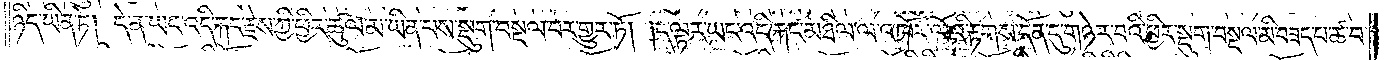ཉིད་ཡིན་ཏེ། དེ་ན་ཡང་འདི་རྐང་རྗེས་ཀྱི་ཕྱིར་ཚུལ་མ་ཡིན་པས་སྡུག་བསྔལ་བར་གྱུར་ཏོ། །ད་ལྟར་ཡང་འདི་རྐང་མཐིལ་ལ་འཁོར་ལོའི་རྟགས་དོན་དུ་གཉེར་བའི་ཕྱིར་སྡུག་བསྔལ་མི་བཟད་པ་ཚ་བ་
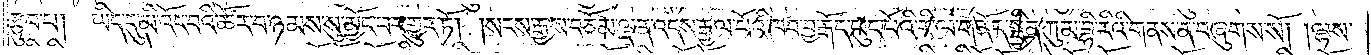རྩུབ་པ།   ཡིད་དུ་མི་འོང་བའི་ཚོར་བ་ཉམས་སུ་མྱོང་བར་གྱུར་ཏོ། །སངས་རྒྱས་བཅོམ་ལྡན་འདས་རྒྱལ་པོའི་ཁབ་བྱ་རྒོད་ཕུང་པོའི་རི་ལ་གནོད་སྦྱིན་ཀུམ་བྷི་རིའི་གནས་ན་བཞུགས་སོ། །ལྷས་
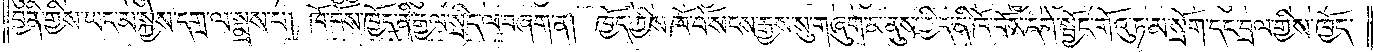བྱིན་གྱིས་ཡང་མ་སྐྱེས་དགྲ་ལ་སྨྲས་པ། ཁོ་བོས་ཁྱོད་ནི་རྒྱལ་སྲིད་ལ་བཞག་ན། ཁྱོད་ཀྱིས་ཁོ་བོ་སངས་རྒྱས་སུ་གཞུག་མ་ནུས་ཀྱི་ད་ནི་ཁོ་བོས་དགེ་སྦྱོང་གོའུ་ཏ་མ་སྲོག་དང་བྲལ་གྱིས་ཁྱོད་
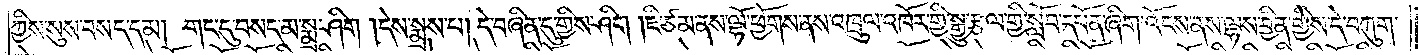ཀྱིས་སུས་བསད་དམ། གང་དུ་བསད་མ་སྨྲ་ཤིག །དེས་སྨྲས་པ། དེ་བཞིན་དུ་གྱིས་ཤིག །ཇི་ཙམ་ནས་ལྷོ་ཕྱོགས་ནས་འཁྲུལ་འཁོར་གྱི་སྒྱུ་རྩལ་གྱི་སློབ་དཔོན་ཞིག་འོངས་ནས་ལྷས་བྱིན་གྱིས་དེ་བཀུག་
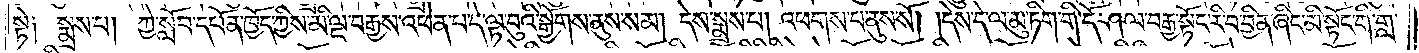སྟེ༑ སྨྲས་པ། ཀྱེ་སློབ་དཔོན་ཁྱོད་ཀྱིས་མི་ལྔ་བརྒྱས་འཕེན་པ་དེ་ལྟ་བུའི་སྒྱོགས་ནུས་སམ། དེས་སྨྲས་པ། འཕགས་པ་ནུས་སོ། །དེས་དེ་ལ་མུ་ཏིག་གི་དོ་ཤལ་བརྒྱ་སྟོང་རི་བ་བྱིན་ཞིང་མི་སྟོང་གི་གླ་
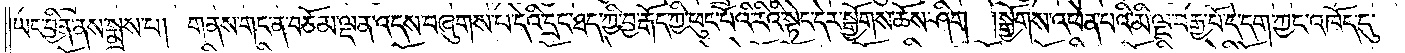ཡང་བྱིན་ནས་སྨྲས་པ། གནས་གང་ན་བཅོམ་ལྡན་འདས་བཞུགས་པ་དེའི་དྲང་ཐད་ཀྱི་བྱ་རྒོད་ཀྱི་ཕུང་པོའི་རིའི་སྟེང་དེར་སྒྱོགས་ཆོས་ཤིག །སྒྱོགས་འཕེན་པའི་མི་ལྔ་བརྒྱ་པོ་དེ་དག་ཀྱང་འཁོད་དུ་
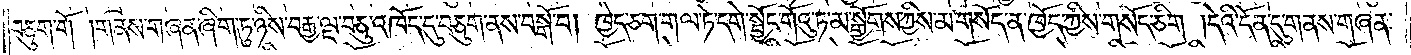བཅུག་གོ །གནས་གཞན་ཞིག་ཏུ་ཉིས་བརྒྱ་ལྔ་བཅུ་འཁོད་དུ་བཅུག་ནས་བསྒོ་བ། ཁྱེད་ཅག་གལ་ཏེ་དགེ་སྦྱོང་གོའུ་ཏ་མ་སྒྱོགས་ཀྱིས་མ་གསོད་ན་ཁྱོད་ཀྱིས་གསོད་ཅིག །དེའི་དོན་དུ་གནས་གཞན་
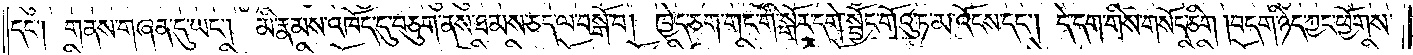དང༌། གནས་གཞན་དུ་ཡང༌། མི་རྣམས་འཁོད་དུ་བཅུག་ནས་ཐམས་ཅད་ལ་བསྒོ་བ། ཁྱེད་ཅག་གང་གི་སྒོར་དགེ་སྦྱོང་གོའུ་ཏ་མ་འོངས་དང༌། དེ་དག་གིས་གསོད་ཅིག །བདག་ཉིད་ཀྱང་ཕྱོགས་
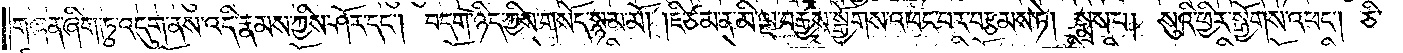གཞན་ཞིག་ཏུ་འདུག་ནས་འདི་རྣམས་ཀྱིས་ཤོར་དང༌། བདག་ཉིད་ཀྱིས་གསོད་སྙམ་མོ། །ཇི་ཙམ་ན་མི་ལྔ་བརྒྱས་སྒྱོགས་འཕང་བར་བརྩམས་ཏེ། སྨྲས་པ། སུའི་ཕྱིར་སྒྱོགས་འཕང༌། ཅི་
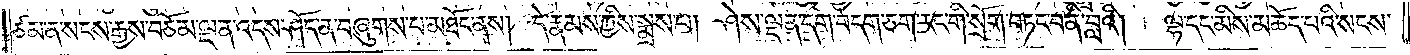ཙམ་ན་སངས་རྒྱས་བཅོམ་ལྡན་འདས་ཤོད་ན་བཞུགས་པ་མཐོང་ནས། དེ་རྣམས་ཀྱིས་སྨྲས་པ། ཤེས་ལྡན་དག་བདག་ཅག་རང་གི་སྲོག་བཏང་བ་ནི་བླའི། ལྷ་དང་མིས་མཆོད་པའི་སངས་
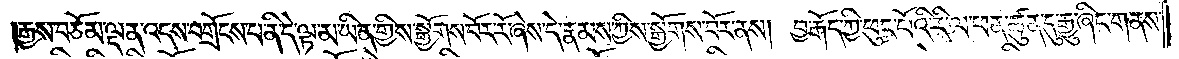རྒྱས་བཅོམ་ལྡན་འདས་བགྲོངས་པ་ནི་དེ་ལྟ་མ་ཡིན་གྱིས་སྒྱོགས་བོར་རོ་ཞེས་དེ་རྣམས་ཀྱིས་སྒྱོགས་བོར་ནས། བྱ་རྒོད་ཀྱི་ཕུང་པོའི་རི་ལ་ཕན་ཚུན་དུ་རྒྱུ་ཞིང་གནས་
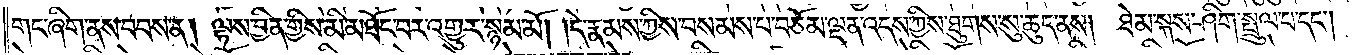གང་ཞིག་ནས་བབས་ན། ལྷས་བྱིན་གྱིས་མི་མཐོང་བར་འགྱུར་སྙམ་མོ། །དེ་རྣམས་ཀྱིས་བསམས་པ་བཅོམ་ལྡན་འདས་ཀྱིས་ཐུགས་སུ་ཆུད་ནས། ཐེམ་སྐས་ཤིག་སྤྲུལ་པ་དང༌།
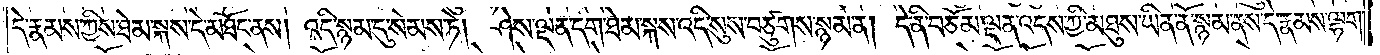དེ་རྣམས་ཀྱིས་ཐེམ་སྐས་དེ་མཐོང་ནས། འདི་སྙམ་དུ་སེམས་ཏེ། ཤེས་ལྡན་དག་ཐེམ་སྐས་འདི་སུས་བཙུགས་སྙམ་ན། དེ་ནི་བཅོམ་ལྡན་འདས་ཀྱི་མཐུས་ཡིན་ནོ་སྙམ་ནས་དེ་རྣམས་ལྷག་
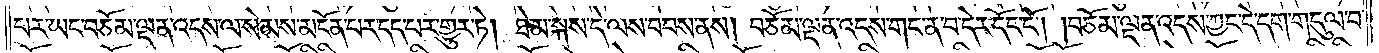པར་ཡང་བཅོམ་ལྡན་འདས་ལ་སེམས་མངོན་པར་དད་པར་གྱུར་ཏེ། ཐེམ་སྐས་དེ་ལས་བབས་ནས། བཅོམ་ལྡན་འདས་གང་ན་བ་དེར་དོང་ངོ༌། །བཅོམ་ལྡན་འདས་ཀྱང་དེ་དག་གདུལ་བ་
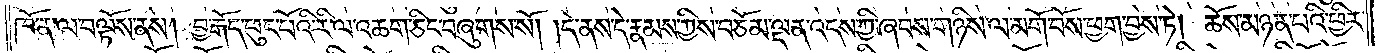ཁོ་ན་ལ་བལྟོས་ནས། བྱ་རྒོད་ཕུང་པོའི་རི་ལ་འཆག་ཅིང་བཞུགས་སོ། །དེ་ནས་དེ་རྣམས་ཀྱིས་བཅོམ་ལྡན་འདས་ཀྱི་ཞབས་གཉིས་ལ་མགོ་བོས་ཕྱག་བྱས་ཏེ། ཆོས་མཉན་པའི་ཕྱིར་
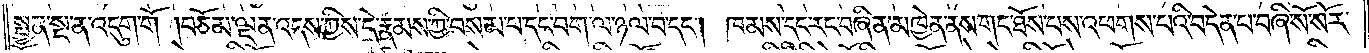སྤྱན་སྔ་ན་འདུག་གོ །བཅོམ་ལྡན་འདས་ཀྱིས་དེ་རྣམས་ཀྱི་བསམ་པ་དང་བག་ལ་ཉལ་བ་དང༌། ཁམས་དང་རང་བཞིན་མཁྱེན་ནས་གང་ཐོས་པས་འཕགས་པའི་བདེན་པ་བཞི་སོ་སོར་
